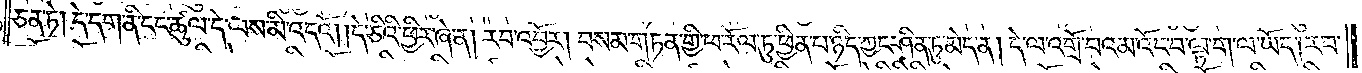ཅན་ཏེ། དེ་དག་ནི་ངང་ཚུལ་དེ་ལས་མི་འདའོ། །དེ་ཅིའི་ཕྱིར་ཞེ་ན། རབ་འབྱོར། བསམ་གཏན་གྱི་ཕ་རོལ་ཏུ་ཕྱིན་པ་ཉིད་ཀྱང་ཤིན་ཏུ་མེད་ན། དེ་ལ་འགྲོ་བའམ་འོང་བ་ལྟ་ག་ལ་ཡོད། རབ་
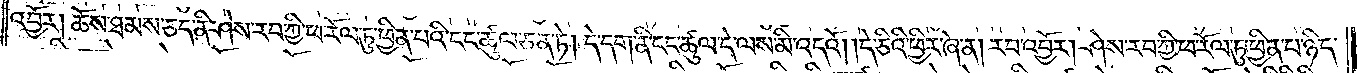འབྱོར། ཆོས་ཐམས་ཅད་ནི་ཤེས་རབ་ཀྱི་ཕ་རོལ་ཏུ་ཕྱིན་པའི་ངང་ཚུལ་ཅན་ཏེ། དེ་དག་ནི་ངང་ཚུལ་དེ་ལས་མི་འདའོ། །དེ་ཅིའི་ཕྱིར་ཞེ་ན། རབ་འབྱོར། ཤེས་རབ་ཀྱི་ཕ་རོལ་ཏུ་ཕྱིན་པ་ཉིད་
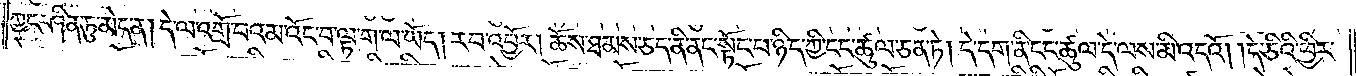ཀྱང་ཤིན་ཏུ་མེད་ན། དེ་ལ་འགྲོ་བའམ་འོང་བ་ལྟ་ག་ལ་ཡོད། རབ་འབྱོར། ཆོས་ཐམས་ཅད་ནི་ནང་སྟོང་པ་ཉིད་ཀྱི་ངང་ཚུལ་ཅན་ཏེ། དེ་དག་ནི་ངང་ཚུལ་དེ་ལས་མི་འདའོ། །དེ་ཅིའི་ཕྱིར་
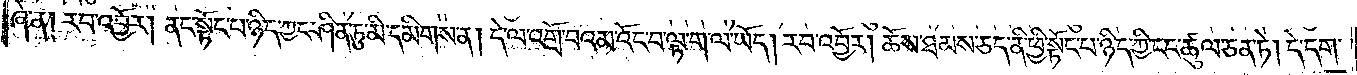ཞེ་ན། རབ་འབྱོར། ནང་སྟོང་པ་ཉིད་ཀྱང་ཤིན་ཏུ་མི་དམིགས་ན། དེ་ལ་འགྲོ་བའམ་འོང་བ་ལྟ་ག་ལ་ཡོད། རབ་འབྱོར། ཆོས་ཐམས་ཅད་ནི་ཕྱི་སྟོང་པ་ཉིད་ཀྱི་ངང་ཚུལ་ཅན་ཏེ། དེ་དག་
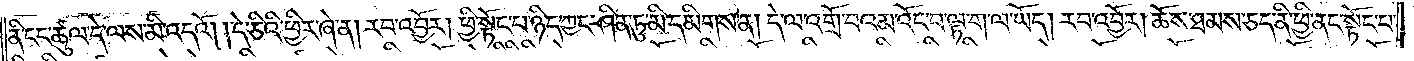ནི་ངང་ཚུལ་དེ་ལས་མི་འདའོ། །དེ་ཅིའི་ཕྱིར་ཞེ་ན། རབ་འབྱོར། ཕྱི་སྟོང་པ་ཉིད་ཀྱང་ཤིན་ཏུ་མི་དམིགས་ན། དེ་ལ་འགྲོ་བའམ་འོང་བ་ལྟ་ག་ལ་ཡོད། རབ་འབྱོར། ཆོས་ཐམས་ཅད་ནི་ཕྱི་ནང་སྟོང་པ་
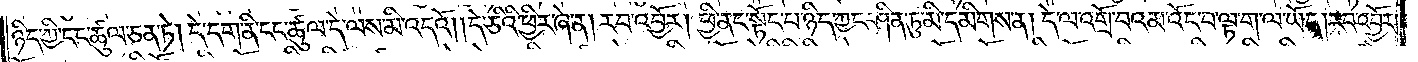ཉིད་ཀྱི་ངང་ཚུལ་ཅན་ཏེ། དེ་དག་ནི་ངང་ཚུལ་དེ་ལས་མི་འདའོ། །དེ་ཅིའི་ཕྱིར་ཞེ་ན། རབ་འབྱོར། ཕྱི་ནང་སྟོང་པ་ཉིད་ཀྱང་ཤིན་ཏུ་མི་དམིགས་ན། དེ་ལ་འགྲོ་བའམ་འོང་བ་ལྟ་ག་ལ་ཡོད། རབ་འབྱོར།
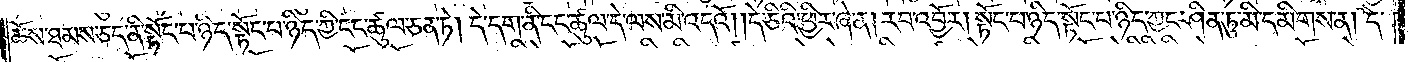ཆོས་ཐམས་ཅད་ནི་སྟོང་པ་ཉིད་སྟོང་པ་ཉིད་ཀྱི་ངང་ཚུལ་ཅན་ཏེ། དེ་དག་ནི་ངང་ཚུལ་དེ་ལས་མི་འདའོ། །དེ་ཅིའི་ཕྱིར་ཞེ་ན། རབ་འབྱོར། སྟོང་པ་ཉིད་སྟོང་པ་ཉིད་ཀྱང་ཤིན་ཏུ་མི་དམིགས་ན། དེ་
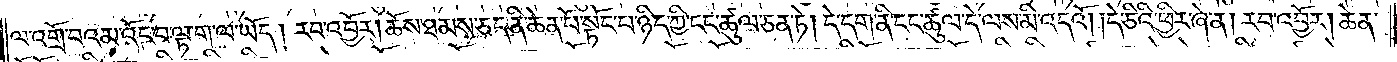ལ་འགྲོ་བའམ་འོང་བ་ལྟ་ག་ལ་ཡོད། རབ་འབྱོར། ཆོས་ཐམས་ཅད་ནི་ཆེན་པོ་སྟོང་པ་ཉིད་ཀྱི་ངང་ཚུལ་ཅན་ཏེ། དེ་དག་ནི་ངང་ཚུལ་དེ་ལས་མི་འདའོ། །དེ་ཅིའི་ཕྱིར་ཞེ་ན། རབ་འབྱོར། ཆེན་
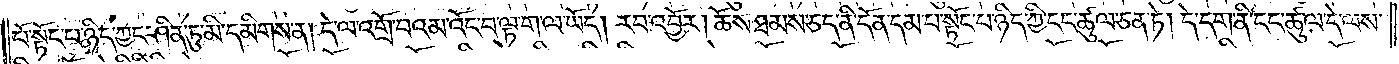པོ་སྟོང་པ་ཉིད་ཀྱང་ཤིན་ཏུ་མི་དམིགས་ན། དེ་ལ་འགྲོ་བའམ་འོང་བ་ལྟ་ག་ལ་ཡོད། རབ་འབྱོར། ཆོས་ཐམས་ཅད་ནི་དོན་དམ་པ་སྟོང་པ་ཉིད་ཀྱི་ངང་ཚུལ་ཅན་ཏེ། དེ་དག་ནི་ངང་ཚུལ་དེ་ལས་
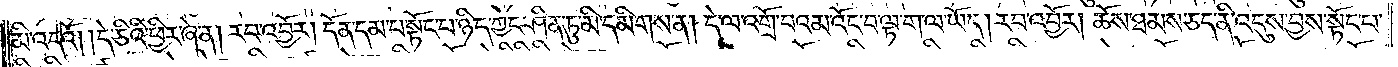མི་འདའོ། །དེ་ཅིའི་ཕྱིར་ཞེ་ན། རབ་འབྱོར། དོན་དམ་པ་སྟོང་པ་ཉིད་ཀྱང་ཤིན་ཏུ་མི་དམིགས་ན། དེ་ལ་འགྲོ་བའམ་འོང་བ་ལྟ་ག་ལ་ཡོད། རབ་འབྱོར། ཆོས་ཐམས་ཅད་ནི་འདུས་བྱས་སྟོང་པ་
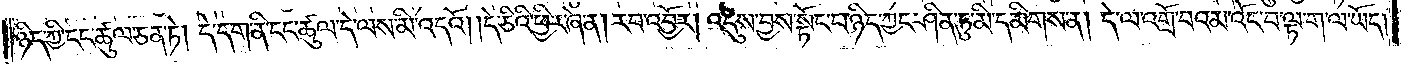ཉིད་ཀྱི་ངང་ཚུལ་ཅན་ཏེ། དེ་དག་ནི་ངང་ཚུལ་དེ་ལས་མི་འདའོ། །དེ་ཅིའི་ཕྱིར་ཞེ་ན། རབ་འབྱོར། འདུས་བྱས་སྟོང་པ་ཉིད་ཀྱང་ཤིན་ཏུ་མི་དམིགས་ན། དེ་ལ་འགྲོ་བའམ་འོང་བ་ལྟ་ག་ལ་ཡོད།
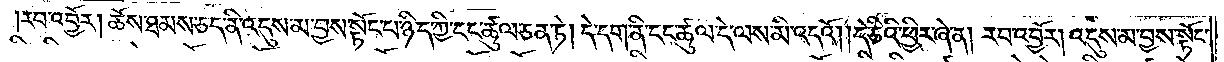རབ་འབྱོར། ཆོས་ཐམས་ཅད་ནི་འདུས་མ་བྱས་སྟོང་པ་ཉིད་ཀྱི་ངང་ཚུལ་ཅན་ཏེ། དེ་དག་ནི་ངང་ཚུལ་དེ་ལས་མི་འདའོ། །དེ་ཅིའི་ཕྱིར་ཞེ་ན། རབ་འབྱོར། འདུས་མ་བྱས་སྟོང་
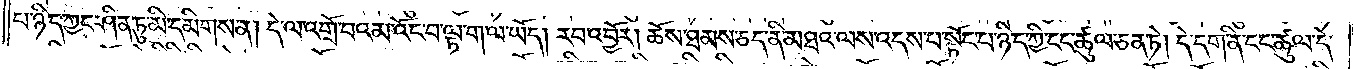པ་ཉིད་ཀྱང་ཤིན་ཏུ་མི་དམིགས་ན། དེ་ལ་འགྲོ་བའམ་འོང་བ་ལྟ་ག་ལ་ཡོད། རབ་འབྱོར། ཆོས་ཐམས་ཅད་ནི་མཐའ་ལས་འདས་པ་སྟོང་པ་ཉིད་ཀྱི་ངང་ཚུལ་ཅན་ཏེ། དེ་དག་ནི་ངང་ཚུལ་དེ་
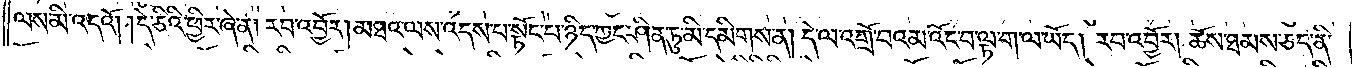ལས་མི་འདའོ། །དེ་ཅིའི་ཕྱིར་ཞེ་ན། རབ་འབྱོར། མཐའ་ལས་འདས་པ་སྟོང་པ་ཉིད་ཀྱང་ཤིན་ཏུ་མི་དམིགས་ན། དེ་ལ་འགྲོ་བའམ་འོང་བ་ལྟ་ག་ལ་ཡོད། རབ་འབྱོར། ཆོས་ཐམས་ཅད་ནི་
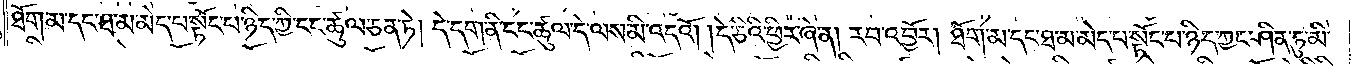ཐོག་མ་དང་ཐ་མ་མེད་པ་སྟོང་པ་ཉིད་ཀྱི་ངང་ཚུལ་ཅན་ཏེ། དེ་དག་ནི་ངང་ཚུལ་དེ་ལས་མི་འདའོ། །དེ་ཅིའི་ཕྱིར་ཞེ་ན། རབ་འབྱོར། ཐོག་མ་དང་ཐ་མ་མེད་པ་སྟོང་པ་ཉིད་ཀྱང་ཤིན་ཏུ་མི་
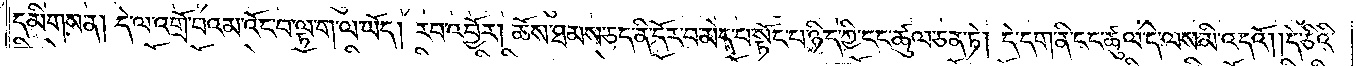དམིགས་ན། དེ་ལ་འགྲོ་བའམ་འོང་བ་ལྟ་ག་ལ་ཡོད། རབ་འབྱོར། ཆོས་ཐམས་ཅད་ནི་དོར་བ་མེད་པ་སྟོང་པ་ཉིད་ཀྱི་ངང་ཚུལ་ཅན་ཏེ། དེ་དག་ནི་ངང་ཚུལ་དེ་ལས་མི་འདའོ། །དེ་ཅིའི་
